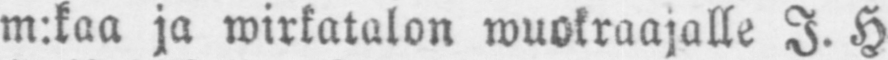m:kaa ja wirkatalon wuokraajalle I. H.
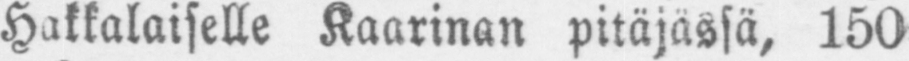Hakkalaiselle Kaarinan pitäjässä, 150
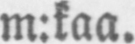m:kaa.
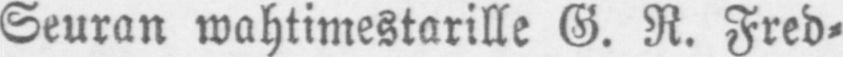Seuran wahtimestarille G. R. Fred-
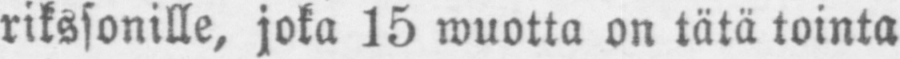rikssonille, joka 15 wuotta on tätä tointa
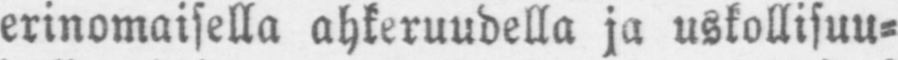erinomaisella ahkeruudella ja uskollisuu-
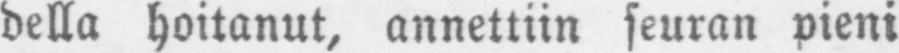della hoitanut, annettiin seuran pieni
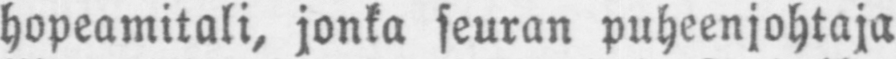hopeamitali, jonka seuran puheenjohtaja
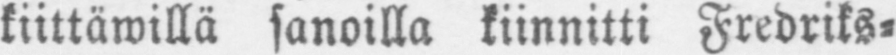kiittäwillä sanoilla kiinnitti Fredriks-
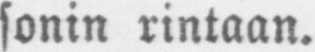sonin rintaan.
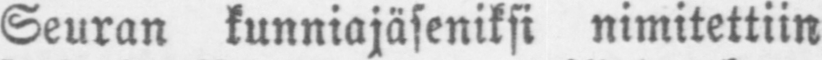Seuran kunniajäseniksi nimitettiin
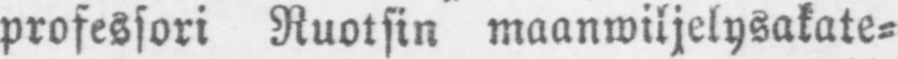professori Ruotsin maanwiljelysakate-
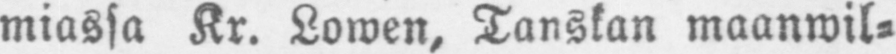miassa Kr. Lowen, Tanskan maanwil-
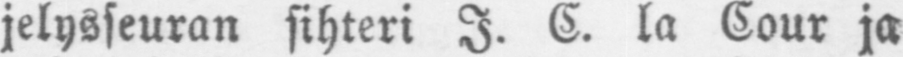jelysseuran sihteri I. C. la Cour ja
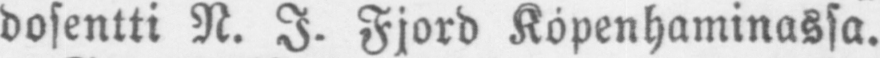dosentti N. I. Fjord Köpenhaminassa.
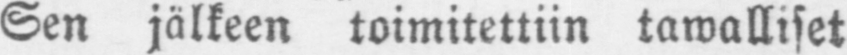Sen jälkeen toimitettiin tawalliset
